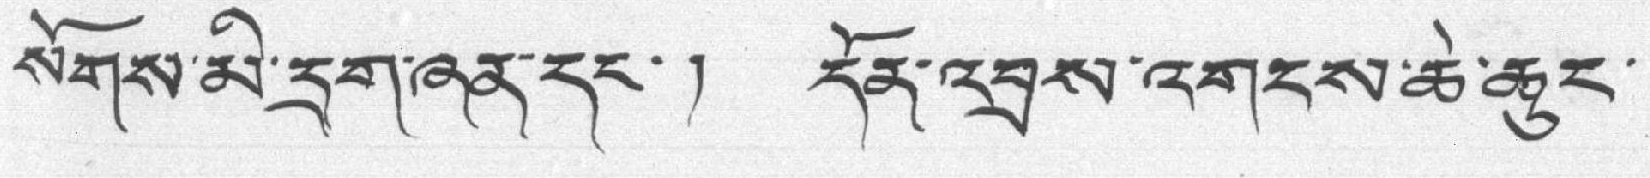སོགས་མི་དྲག་ཞན་དང་། དོན་འབྲས་འགངས་ཆེ་ཆུང་
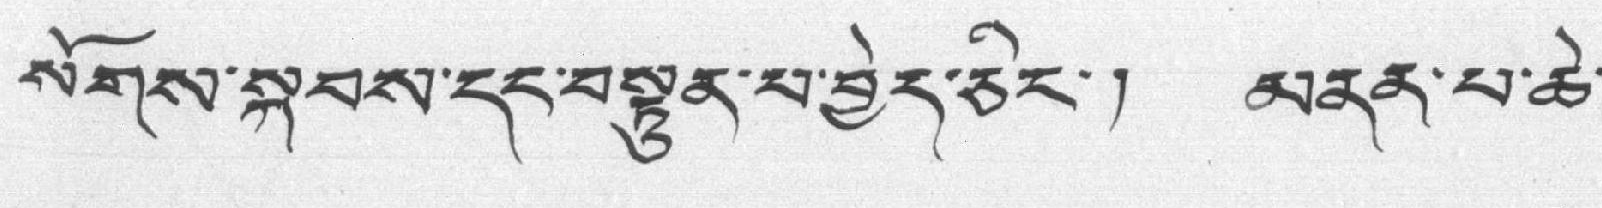སོགས་སྐབས་དང་བསྟུན་པ་བྱེད་ཅིང་། མནན་པ་ཆེ་
